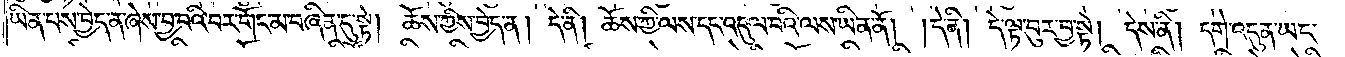ཡིན་པས་བྱེད་ན་ཞེས་བྱ་བའི་བར་གོང་མ་བཞིན་དུ་སྟེ། ཆོས་ཀྱིས་བྱེད་ན། དེ་ནི། ཆོས་ཀྱི་ལས་དང་འདུལ་བའི་ལས་ཡིན་ནོ། །དེ་ནི། དེ་ལྟ་བུར་བྱ་སྟེ། དེས་ནི། དགེ་འདུན་ཡང་
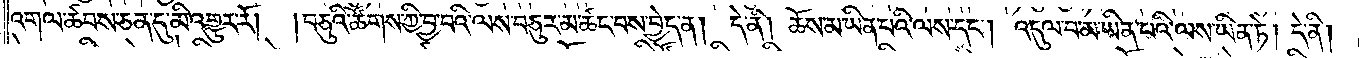འགལ་ཚབས་ཅན་དུ་མི་འགྱུར་རོ། །བཅུའི་ཚོགས་ཀྱི་བྱ་བའི་ལས་བཅུར་མ་ཚང་བས་བྱེད་ན། དེ་ནི། ཆོས་མ་ཡིན་པའི་ལས་དང༌། འདུལ་བ་མ་ཡིན་པའི་ལས་ཡིན་ཏེ། དེ་ནི།
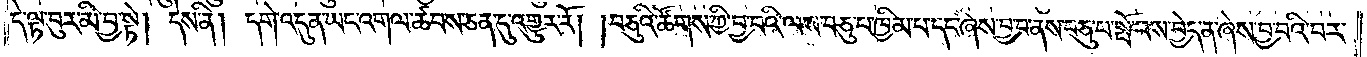དེ་ལྟ་བུར་མི་བྱ་སྟེ། དེས་ནི། དགེ་འདུན་ཡང་འགལ་ཚབས་ཅན་དུ་འགྱུར་རོ། །བཅུའི་ཚོགས་ཀྱི་བྱ་བའི་ལས་བཅུ་པ་ཁྱིམ་པ་དང་ཞེས་བྱ་བ་ནས་བཅུ་པ་སྤོ་བས་བྱེད་ན་ཞེས་བྱ་བའི་བར་
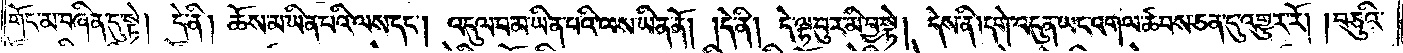གོང་མ་བཞིན་དུ་སྟེ། དེ་ནི། ཆོས་མ་ཡིན་པའི་ལས་དང༌། འདུལ་བ་མ་ཡིན་པའི་ལས་ཡིན་ནོ། །དེ་ནི། དེ་ལྟ་བུར་མི་བྱ་སྟེ། དེས་ནི། དགེ་འདུན་ཡང་འགལ་ཚབས་ཅན་དུ་འགྱུར་རོ། །བཅུའི་
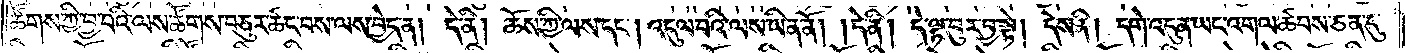ཚོགས་ཀྱི་བྱ་བའི་ལས་ཚོགས་བཅུར་ཚང་བས་ལས་བྱེད་ན། དེ་ནི། ཆོས་ཀྱི་ལས་དང༌། འདུལ་བའི་ལས་ཡིན་ནོ། །དེ་ནི། དེ་ལྟ་བུར་བྱ་སྟེ། དེས་ནི། དགེ་འདུན་ཡང་འགལ་ཚབས་ཅན་དུ་
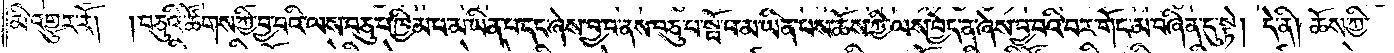མི་འགྱུར་རོ། །བཅུའི་ཚོགས་ཀྱི་བྱ་བའི་ལས་བཅུ་པ་ཁྱིམ་པ་མ་ཡིན་པ་དང་ཞེས་བྱ་བ་ནས་བཅུ་པ་སྤོ་བ་མ་ཡིན་པས་ཆོས་ཀྱི་ལས་བྱེད་ན་ཞེས་བྱ་བའི་བར་གོང་མ་བཞིན་དུ་སྟེ། དེ་ནི། ཆོས་ཀྱི་
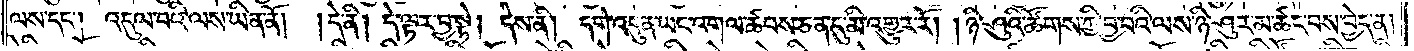ལས་དང༌། འདུལ་བའི་ལས་ཡིན་ནོ། །དེ་ནི། དེ་ལྟར་བྱ་སྟེ། དེས་ནི། དགེ་འདུན་ཡང་འགལ་ཚབས་ཅན་དུ་མི་འགྱུར་རོ། །ཉི་ཤུའི་ཚོགས་ཀྱི་བྱ་བའི་ལས་ཉི་ཤུར་མ་ཚང་བས་བྱེད་ན།
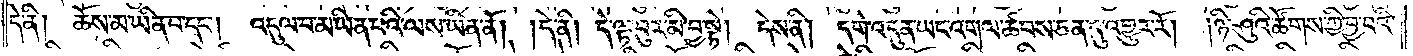དེ་ནི། ཆོས་མ་ཡིན་པ་དང༌། འདུལ་བ་མ་ཡིན་པའི་ལས་ཡིན་ནོ། །དེ་ནི། དེ་ལྟ་བུར་མི་བྱ་སྟེ། དེས་ནི། དགེ་འདུན་ཡང་འགལ་ཚབས་ཅན་དུ་འགྱུར་རོ། །ཉི་ཤུའི་ཚོགས་ཀྱི་བྱ་བའི་
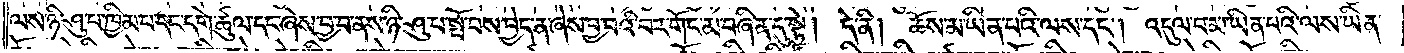ལས་ཉི་ཤུ་པ་ཁྱིམ་པ་དང་དགེ་ཚུལ་དང་ཞེས་བྱ་བ་ནས་ཉི་ཤུ་པ་སྤོ་བས་བྱེད་ན་ཞེས་བྱ་བའི་བར་གོང་མ་བཞིན་དུ་སྟེ། དེ་ནི། ཆོས་མ་ཡིན་པའི་ལས་དང༌། འདུལ་བ་མ་ཡིན་པའི་ལས་ཡིན་
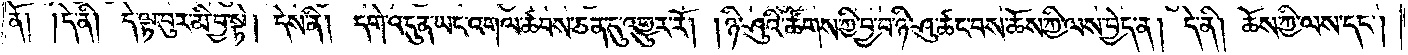ནོ། །དེ་ནི། དེ་ལྟ་བུར་མི་བྱ་སྟེ། དེས་ནི། དགེ་འདུན་ཡང་འགལ་ཚབས་ཅན་དུ་འགྱུར་རོ། །ཉི་ཤུའི་ཚོགས་ཀྱི་བྱ་བ་ཉི་ཤུ་ཚང་བས་ཆོས་ཀྱི་ལས་བྱེད་ན། དེ་ནི། ཆོས་ཀྱི་ལས་དང༌།
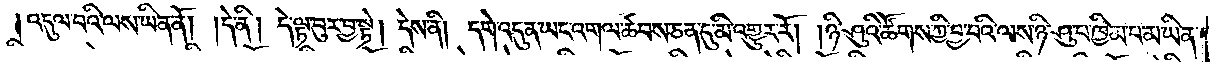འདུལ་བའི་ལས་ཡིན་ནོ། །དེ་ནི། དེ་ལྟ་བུར་བྱ་སྟེ། དེས་ནི། དགེ་འདུན་ཡང་འགལ་ཚབས་ཅན་དུ་མི་འགྱུར་རོ། །ཉི་ཤུའི་ཚོགས་ཀྱི་བྱ་བའི་ལས་ཉི་ཤུ་པ་ཁྱིམ་པ་མ་ཡིན་
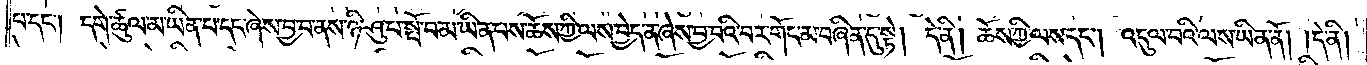པ་དང༌། དགེ་ཚུལ་མ་ཡིན་པ་དང་ཞེས་བྱ་བ་ནས་ཉི་ཤུ་པ་སྤོ་བ་མ་ཡིན་པས་ཆོས་ཀྱི་ལས་བྱེད་ན་ཞེས་བྱ་བའི་བར་གོང་མ་བཞིན་དུ་སྟེ། དེ་ནི། ཆོས་ཀྱི་ལས་དང༌། འདུལ་བའི་ལས་ཡིན་ནོ། །དེ་ནི།
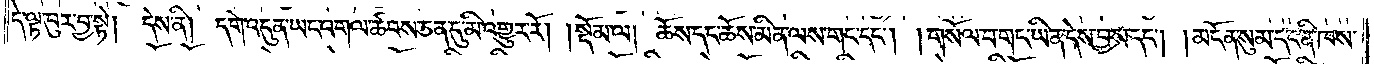དེ་ལྟ་བུར་བྱ་སྟེ། དེས་ནི། དགེ་འདུན་ཡང་འགལ་ཚབས་ཅན་དུ་མི་འགྱུར་རོ། །སྡོམ་ལ། ཆོས་དང་ཆོས་མིན་ལས་གང་དང༌། །གསོལ་པ་གང་ཡིན་དེས་བྱས་པ་དང༌། །མངོན་སུམ་དང་ནི་ཁས་
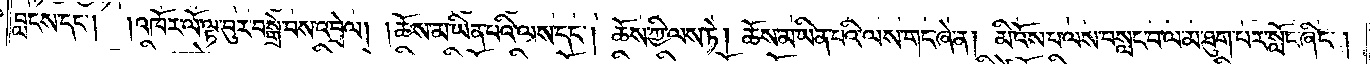བླངས་དང༌། །འཁོར་ལོ་ལྟ་བུར་བསྒྲེ་བས་འབྲེལ། །ཆོས་མ་ཡིན་པའི་ལས་དང༌། ཆོས་ཀྱི་ལས་ཏེ། ཆོས་མ་ཡིན་པའི་ལས་གང་ཞེ་ན། མི་འོས་པ་ལས་བསླང་བ་ལ་མ་ཐུག་པར་སློང་ཞིང༌།
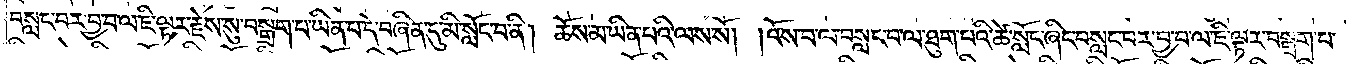བསླང་བར་བྱ་བ་ལ་ཇི་ལྟར་རྗེས་སུ་བསྒྲག་པ་ཡིན་པ་དེ་བཞིན་དུ་མི་སློང་བ་ནི། ཆོས་མ་ཡིན་པའི་ལས་སོ། །འོས་པ་ལ་བསླང་བ་ལ་ཐུག་པའི་ཚེ་སློང་ཞིང་བསླང་བར་བྱ་བ་ལ་ཇི་ལྟར་བསྒྲག་པ་
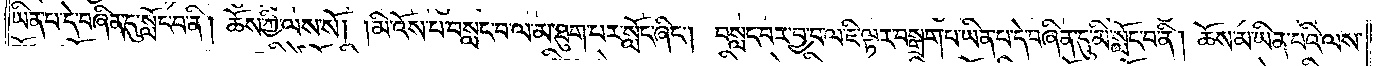ཡིན་པ་དེ་བཞིན་དུ་སློང་བ་ནི། ཆོས་ཀྱི་ལས་སོ། །མི་འོས་པ་བསླང་བ་ལ་མ་ཐུག་པར་སློང་ཞིང༌། བསླང་བར་བྱ་བ་ལ་ཇི་ལྟར་བསྒྲག་པ་ཡིན་པ་དེ་བཞིན་དུ་མི་སློང་བ་ནི། ཆོས་མ་ཡིན་པའི་ལས་
